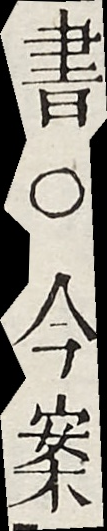書○今案
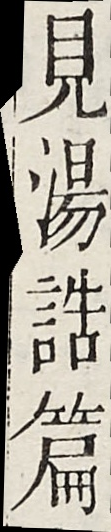見湯誥篇
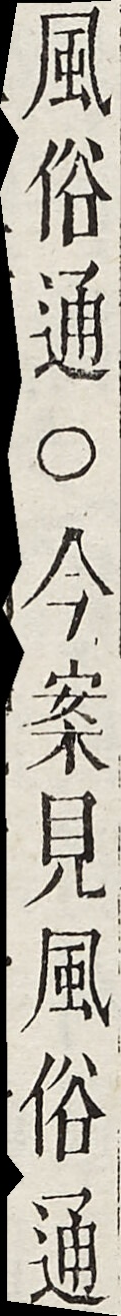風俗通○今案見風俗通
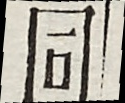同
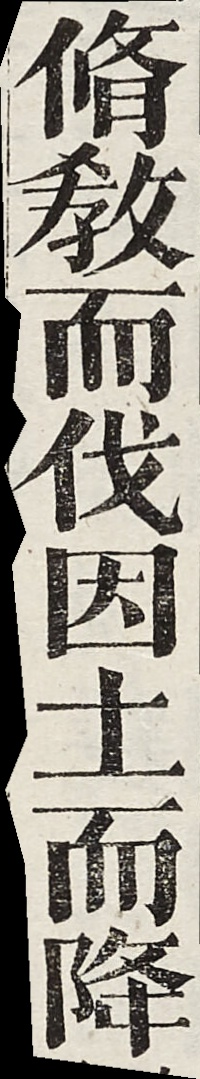脩教而伐因土而降
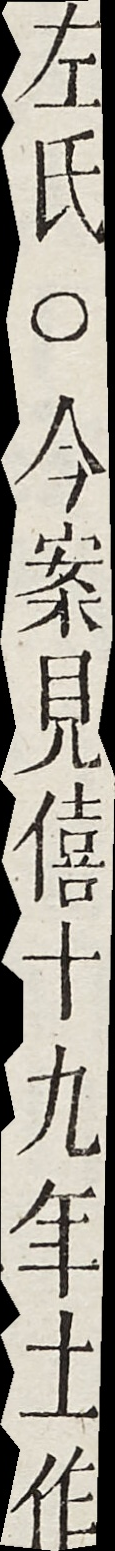左氏○今案見僖十九年土作
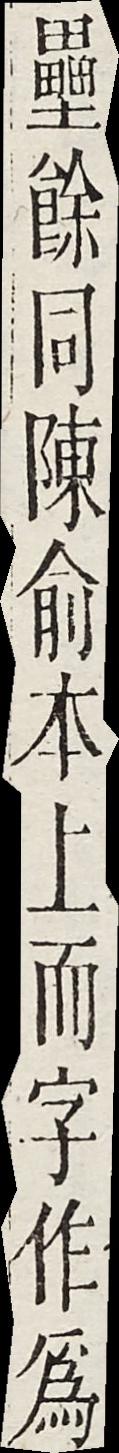壘餘同陳俞本上而字作為
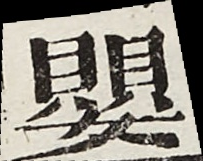嬰
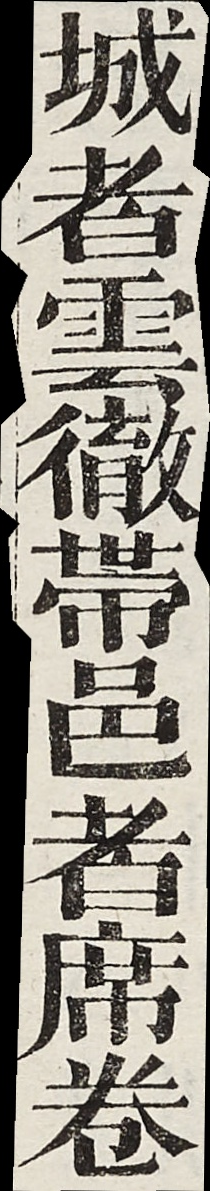城者雲徹帶邑者席卷
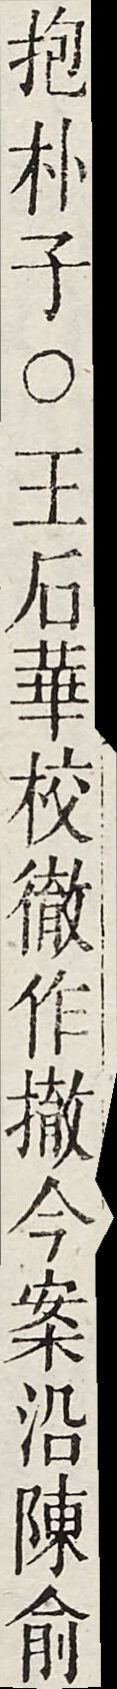抱朴子○王石華校澈作撤今案沿陳俞
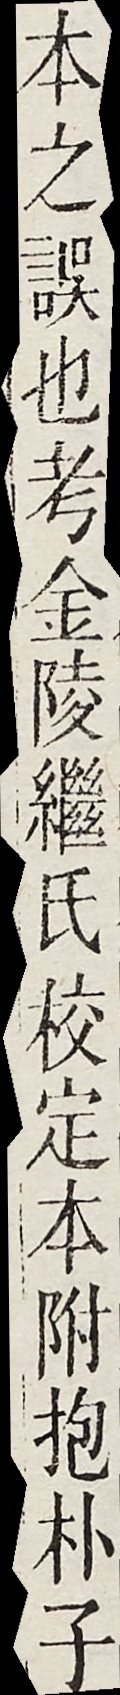本之誤也考金陵繼氏校定本弣抱朴子
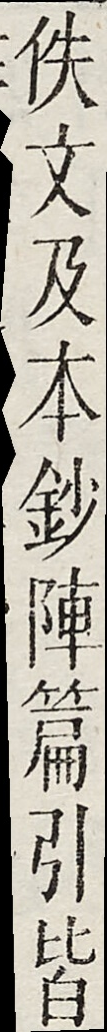佚文及本鈔陣篇引皆
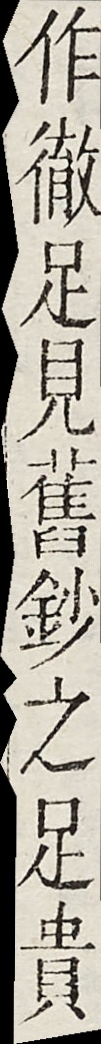作徹足見舊鈔之足貴
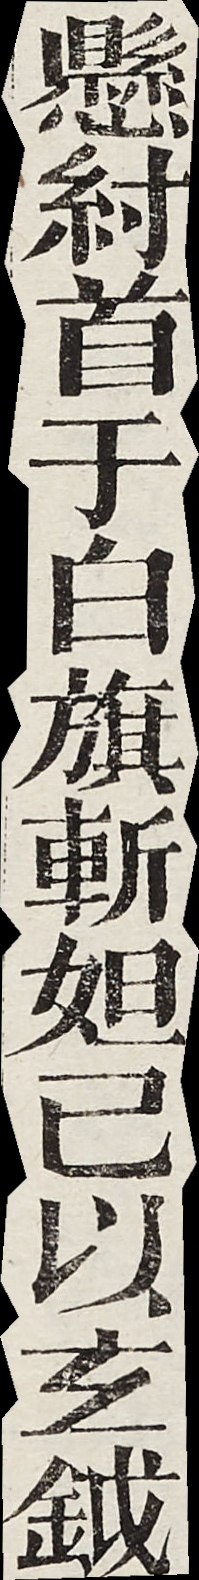懸紂首于白旗斬妲己以玄鉞
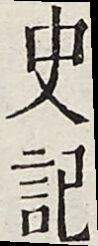史記
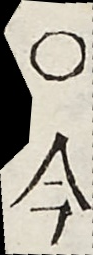○今
